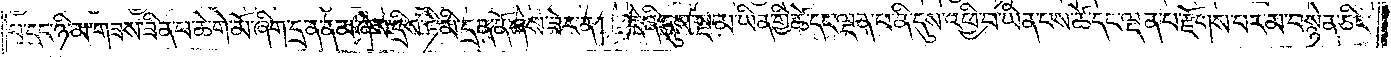པ་དང་ཉི་མ་གཟས་ཟིན་པ་ཆེ་གེ་མོ་ཞིག་དྲན་ནམ་ཞེས་དྲིས་ཏེ་མི་དྲན་ནོ་ཞེས་ཟེར་ན། དེ་ནི་དུས་སྔ་མ་ཡིན་གྱི་ཚེ་དང་ལྡན་པ་ནི་དུས་འཕྱི་བ་ཡིན་པས་ཚེ་དང་ལྡན་པ་རྫོགས་པར་མ་བསྙེན་ཅིང་
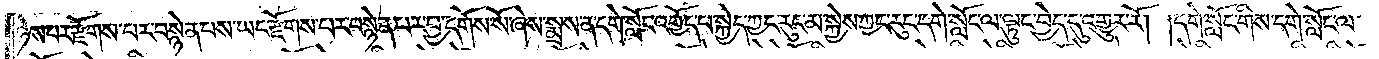ཉེས་པར་རྫོགས་པར་བསྙེན་པས་ཡང་རྫོགས་པར་བསྙེན་པར་བྱ་དགོས་སོ་ཞེས་སྨྲས་ན་དགེ་སློང་འགྱོད་པ་སྐྱེད་ཀྱང་རུང་མ་སྐྱེས་ཀྱང་རུང་དགེ་སློང་ལ་ལྟུང་བྱེད་དུ་འགྱུར་རོ། །དགེ་སློང་གིས་དགེ་སློང་ལ་
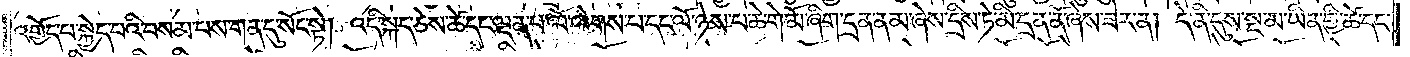འགྱོད་པ་སྐྱེད་པའི་བསམ་པས་གན་དུ་སོང་སྟེ། འདི་སྐད་ཅེས་ཚེ་དང་ལྡན་པ་ལོ་ལེགས་པ་དང་ལོ་ཉེས་པ་ཆེ་གེ་མོ་ཞིག་དྲན་ནམ་ཞེས་དྲིས་ཏེ་མི་དྲན་ནོ་ཞེས་ཟེར་ན། དེ་ནི་དུས་སྔ་མ་ཡིན་གྱི་ཚེ་དང་
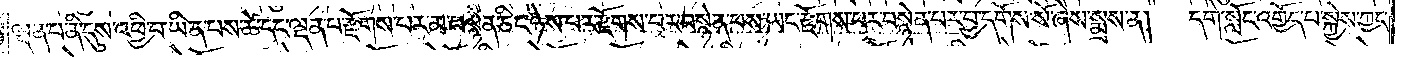ལྡན་པ་ནི་དུས་འཕྱི་བ་ཡིན་པས་ཚེ་དང་ལྡན་པ་རྫོགས་པར་མ་བསྙེན་ཅིང་ཉེས་པར་རྫོགས་པར་བསྙེན་པས་ཡང་རྫོགས་པར་བསྙེན་པར་བྱ་དགོས་སོ་ཞེས་སྨྲས་ན། དགེ་སློང་འགྱོད་པ་སྐྱེས་ཀྱང་
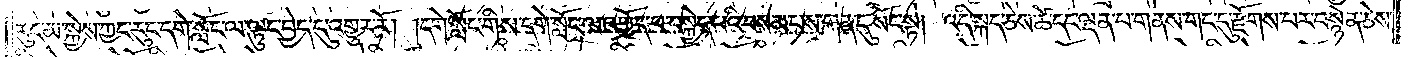རུང་མ་སྐྱེས་ཀྱང་རུང་དགེ་སློང་ལ་ལྟུང་བྱེད་དུ་འགྱུར་རོ། །དགེ་སློང་གིས་དགེ་སློང་ལ་འགྱོད་པ་བསྐྱེད་པའི་བསམ་པས་གན་དུ་སོང་སྟེ། འདི་སྐད་ཅེས་ཚེ་དང་ལྡན་པ་གནས་གང་དུ་རྫོགས་པར་བསྙེན་ཅེས་
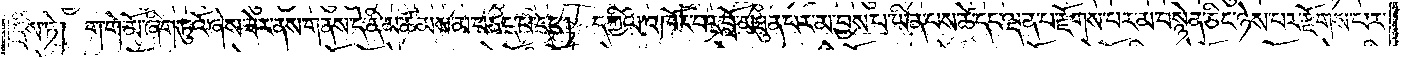དྲིས་ཏེ། ག་གེ་མོ་ཞིག་ཏུའོ་ཞེས་ཟེར་ནས་གནས་དེ་ནི་མཚམས་མ་བཅད་པ་དང༌། དཀྱིལ་འཁོར་བར་བློ་མཐུན་པར་མ་བྱས་པ་ཡིན་པས་ཚེ་དང་ལྡན་པ་རྫོགས་པར་མ་བསྙེན་ཅིང་ཉེས་པར་རྫོགས་པར་
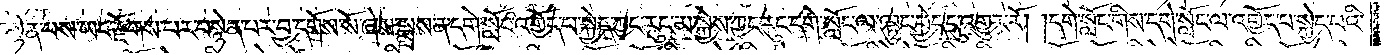བསྙེན་པས་ཡང་རྫོགས་པར་བསྙེན་པར་བྱ་དགོས་སོ་ཞེས་སྨྲས་ན་དགེ་སློང་འགྱོད་པ་སྐྱེད་ཀྱང་རུང་མ་སྐྱེས་ཀྱང་རུང་དགེ་སློང་ལ་ལྟུང་བྱེད་དུ་འགྱུར་རོ། །དགེ་སློང་གིས་དགེ་སློང་ལ་འགྱོད་པ་སྐྱེད་པའི་
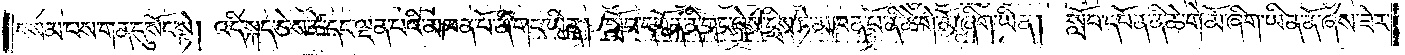བསམ་པས་གན་དུ་སོང་སྟེ། འདི་སྐད་ཅེས་ཚེ་དང་ལྡན་པའི་མཁན་པོ་ནི་གང་ཡིན། སློབ་དཔོན་ནི་གང་ཞེས་དྲིས་ཏེ་མཁན་པོ་ནི་ཆེ་གེ་མོ་ཞིག་ཡིན། སློབ་དཔོན་ནི་ཆེ་གེ་མོ་ཞིག་ཡིན་ནོ་ཞེས་ཟེར་
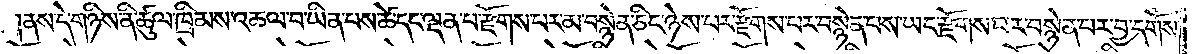ནས་དེ་གཉིས་ནི་ཚུལ་ཁྲིམས་འཆལ་བ་ཡིན་པས་ཚེ་དང་ལྡན་པ་རྫོགས་པར་མ་བསྙེན་ཅིང་ཉེས་པར་རྫོགས་པར་བསྙེན་པས་ཡང་རྫོགས་པར་བསྙེན་པར་བྱ་དགོས་
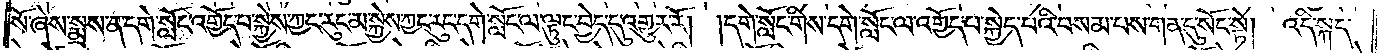སོ་ཞེས་སྨྲས་ན་དགེ་སློང་འགྱོད་པ་སྐྱེས་ཀྱང་རུང་མ་སྐྱེས་ཀྱང་རུང་དགེ་སློང་ལ་ལྟུང་བྱེད་དུ་འགྱུར་རོ། །དགེ་སློང་གིས་དགེ་སློང་ལ་འགྱོད་པ་སྐྱེད་པའི་བསམ་པས་གན་དུ་སོང་སྟེ། འདི་སྐད་
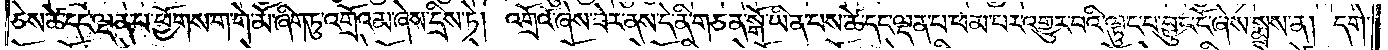ཅེས་ཚེ་དང་ལྡན་པ་ཕྱོགས་ག་གེ་མོ་ཞིག་ཏུ་འགྲོའམ་ཞེས་དྲིས་ཏེ། འགྲོའོ་ཞེས་ཟེར་ནས་དེ་ནི་གཅན་སྒོ་ཡིན་པས་ཚེ་དང་ལྡན་པ་ཕམ་པར་འགྱུར་བའི་ལྟུང་བ་བྱུང་ངོ་ཞེས་སྨྲས་ན། དགེ་
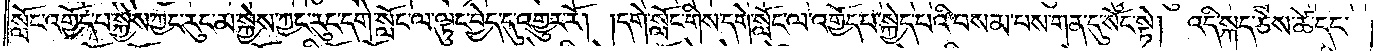སློང་འགྱོད་པ་སྐྱེས་ཀྱང་རུང་མ་སྐྱེས་ཀྱང་རུང་དགེ་སློང་ལ་ལྟུང་བྱེད་དུ་འགྱུར་རོ། །དགེ་སློང་གིས་དགེ་སློང་ལ་འགྱོད་པ་སྐྱེད་པའི་བསམ་པས་གན་དུ་སོང་སྟེ། འདི་སྐད་ཅེས་ཚེ་དང་
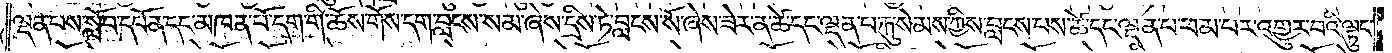ལྡན་པས་སློབ་དཔོན་དང་མཁན་པོ་དག་གི་ཆོས་གོས་དག་བླངས་སམ་ཞེས་དྲིས་ཏེ་བླངས་སོ་ཞེས་ཟེར་ན་ཚེ་དང་ལྡན་པ་རྐུ་སེམས་ཀྱིས་བླངས་པས་ཚེ་དང་ལྡན་པ་ཕམ་པར་འགྱུར་བའི་ལྟུང་
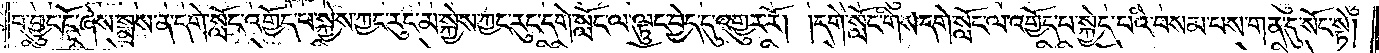བ་བྱུང་ངོ་ཞེས་སྨྲས་ན་དགེ་སློང་འགྱོད་པ་སྐྱེས་ཀྱང་རུང་མ་སྐྱེས་ཀྱང་རུང་དགེ་སློང་ལ་ལྟུང་བྱེད་དུ་འགྱུར་རོ། །དགེ་སློང་གིས་དགེ་སློང་ལ་འགྱོད་པ་སྐྱེད་པའི་བསམ་པས་གན་དུ་སོང་སྟེ།
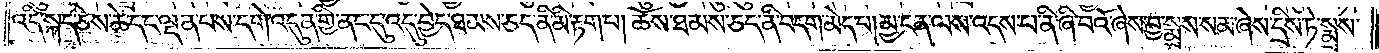འདི་སྐད་ཅེས་ཚེ་དང་ལྡན་པས་དགེ་འདུན་གྱི་ནང་དུ་འདུ་བྱེད་ཐམས་ཅད་ནི་མི་རྟག་པ། ཆོས་ཐམས་ཅད་ནི་བདག་མེད་པ། མྱ་ངན་ལས་འདས་པ་ནི་ཞི་བའོ་ཞེས་བྱ་སྨྲས་སམ་ཞེས་དྲིས་ཏེ་སྨྲས་
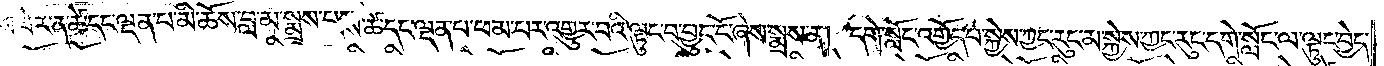སོ་ཞེས་ཟེར་ན་ཚེ་དང་ལྡན་པ་མི་ཆོས་བླ་མ་སྨྲས་པས་ཚེ་དང་ལྡན་པ་ཕམ་པར་འགྱུར་བའི་ལྟུང་བ་བྱུང་ངོ་ཞེས་སྨྲས་ན། དགེ་སློང་འགྱོད་པ་སྐྱེས་ཀྱང་རུང་མ་སྐྱེས་ཀྱང་རུང་དགེ་སློང་ལ་ལྟུང་བྱེད་
